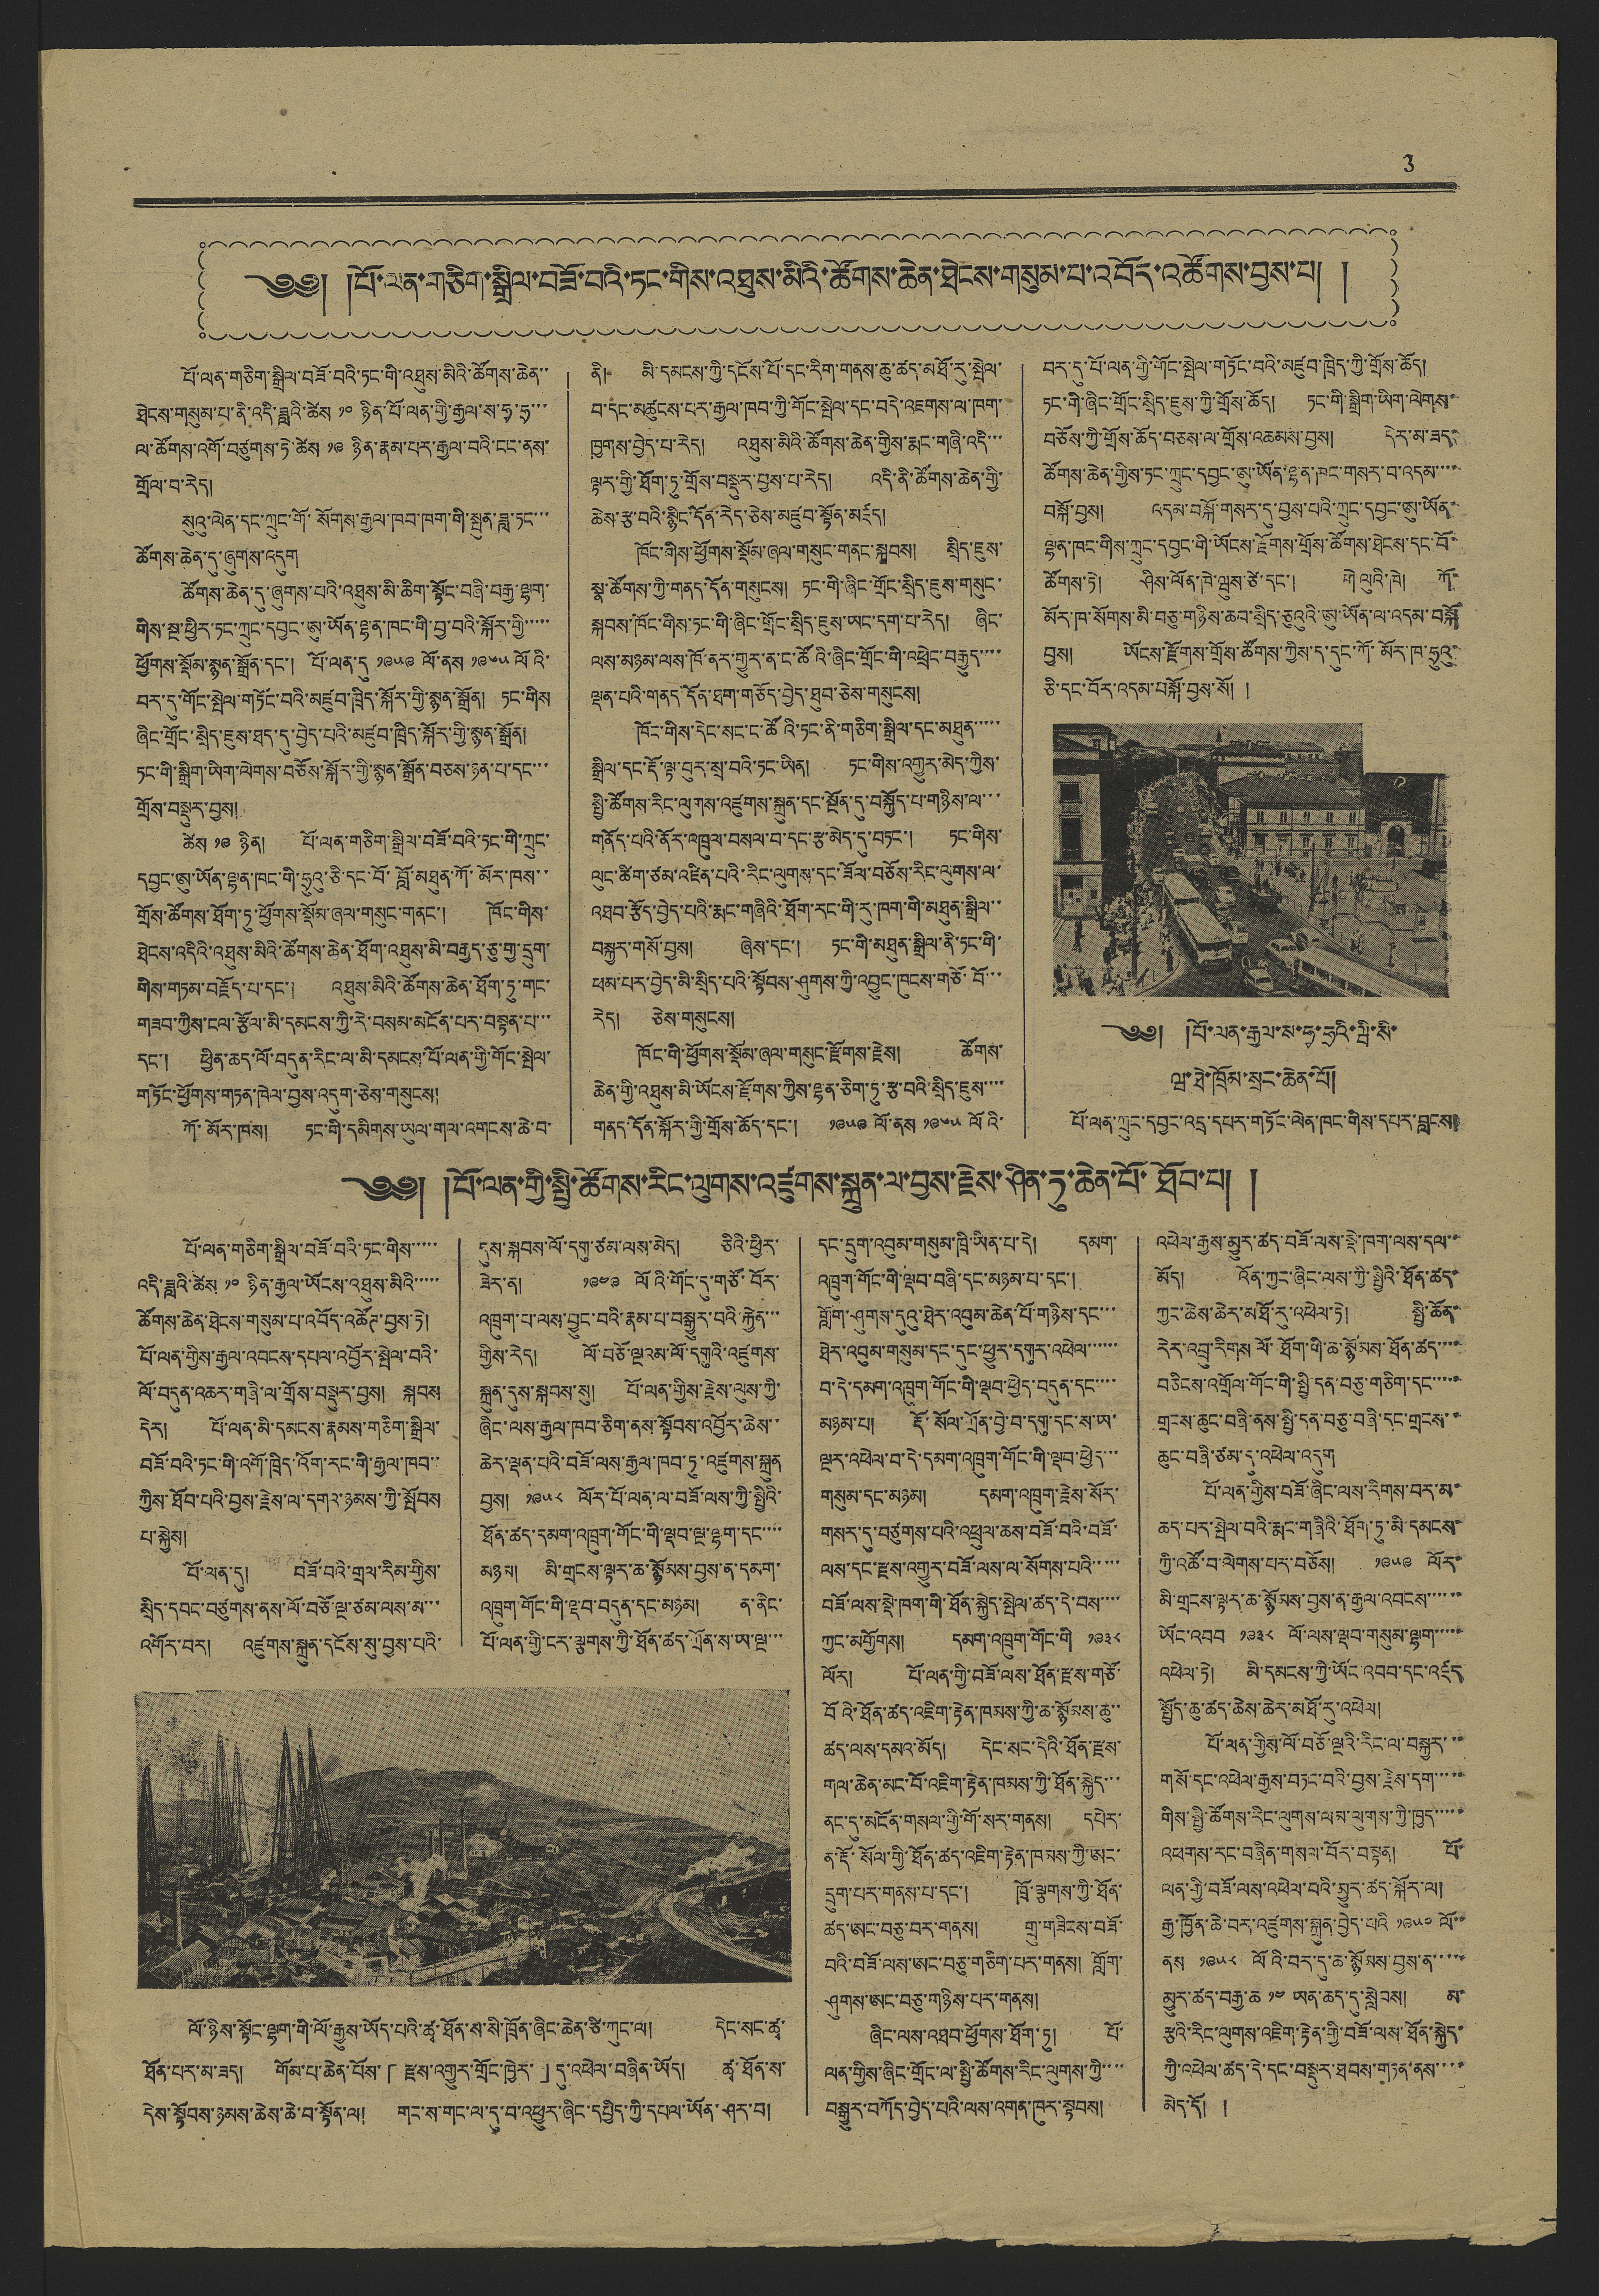3
༄༅། །པོ་ལན་གཅིག་སྒྲིལ་བཟོ་བའི་ཏང་གིས་འཐུས་མིའི་ཚོགས་ཆེན་ཐེངས་གསུམ་པ་འབོད་འཚོགས་བྱས་པ། །
པོ་ལན་གཅིག་སྒྲིལ་བཟོ་བའི་ཏང་གི་འཐུས་མིའི་ཚོགས་ཆེན་་
ཐེངས་གསུམ་པ་ནི་འདི་ཟླའི་ཚེས ༡༠ ཉིན་པོ་ལན་གྱི་རྒྱལ་ས་ཧྭ་ཧྲ་་་
ལ་ཚོགས་འགོ་བཙུགས་ཏེ་ཚེས ༡༩ ཉིན་རྣམ་པར་རྒྱལ་བའི་ངང་ནས་
གྲོལ་བ་རེད།
སུའུ་ལེན་དང་ཀྲུང་གོ་སོགས་རྒྱལ་ཁབ་ཁག་གི་སྤུན་ཟླ་ཏང་་་
ཚོགས་ཆེན་དུ་ཞུགས་འདུག
ཚོགས་ཆེན་དུ་ཞུགས་པའི་འཐུས་མི་ཆིག་སྟོང་བཞི་བརྒྱ་ལྷག་
གིས་སྔ་ཕྱིར་ཏང་ཀྲུང་དབྱང་ཨུ་ཡོན་ལྷན་ཁང་གི་བྱ་བའི་སྐོར་གྱི་་་་་
ཕྱོགས་སྡོམ་སྙན་སྒྲོན་དང་། པོ་ལན་དུ ༡༩༥༩ ལོ་ནས ༡༩༦༥ ལོའི་
བར་དུ་གོང་སྤེལ་གཏོང་བའི་མཛུབ་ཁྲིད་སྐོར་གྱི་སྙན་སྒྲོན། ཏང་གིས
ཞིང་གྲོང་སྲིད་ཇུས་ཐད་དུ་བྱེད་པའི་མཛུབ་ཁྲིད་སྐོར་གྱི་སྙན་སྒྲོན།
ཏང་གི་སྒྲིག་ཡིག་ལེགས་བཅོས་སྐོར་གྱི་སྙན་སྒྲོན་བཅས་ཉན་པ་དང་་་
གྲོས་བསྡུར་བྱས།
ཚེས ༡༩ ཉིན། པོ་ལན་གཅིག་སྒྲིལ་བཟོ་བའི་ཏང་གི་ཀྲུང་
དབྱང་ཨུ་ཡོན་ལྷན་ཁང་གི་ཧྲུའུ་ཅི་དང་བོ་བློ་མཐུན་གོ་མོར་ཁས་་
གྲོས་ཚོགས་ཐོག་ཏུ་ཕྱོགས་སྡོམ་ཞལ་གསུང་གནང་། ཁོང་གིས་
ཐེངས་འདིའི་འཐུས་མིའི་ཚོགས་ཆེན་ཐོག་འཐུས་མི་བརྒྱད་ཅུ་གྱ་དྲུག་
གིས་གཏམ་བརྗོད་པ་དང་། འཐུས་མིའི་ཚོགས་ཆེན་ཐོག་ཏུ་གང་
གཟབ་ཀྱིས་ངལ་རྩོལ་མི་དམངས་ཀྱི་རེ་བསམ་མངོན་པར་བསྟན་པ་་་
དང་། ཕྱིན་ཆད་ལོ་བདུན་རིང་ལ་མི་དམངས་པོ་ལན་གྱི་གོང་སྤེལ་
གཏོང་ཕྱོགས་གཏན་ཁེལ་བྱས་འདུག་ཅེས་གསུངས།
ཀོ་མོར་ཁས། ཏང་གི་དམིགས་ཡུལ་གལ་འགངས་ཆེ་བ་
ནི། མི་དམངས་ཀྱི་དངོས་པོ་དང་རིག་གནས་ཆུ་ཚད་མཐོ་རུ་སྤེལ་
བ་དང་མཚུངས་པར་རྒྱལ་ཁབ་ཀྱི་གོང་སྤེལ་དང་བདེ་འཇགས་ལ་ཁག་
ཁྱགས་བྱེད་པ་རེད། འཐུས་མིའི་ཚོགས་ཆེན་གྱིས་རྨང་གཞི་འདི་་་
ལྟར་གྱི་ཐོག་ཏུ་གྲོས་བསྡུར་བྱས་པ་རེད། འདི་ནི་ཚོགས་ཆེན་གྱི་
ཆེས་རྩ་བའི་སྙིང་དོན་རེད་ཅེས་མཛུབ་སྟོན་མཛད།
ཁོང་གིས་ཕྱོགས་སྡོམ་ཞལ་གསུང་གནང་སྐབས། སྲིད་ཇུས་
སྣ་ཚོགས་ཀྱི་གནད་དོན་གསུངས། ཏང་གི་ཞིང་གྲོང་སྲིད་ཇུས་གསུང་
སྐབས་ཁོང་གིས་ཏང་གི་ཞིང་གྲོང་སྲིད་ཇུས་ཡང་དག་པ་རེད། ཞིང་
ལས་མཉམ་ལས་ཁོ་ནར་གྱུར་ན་ང་ཚོའི་ཞིང་གྲོང་གི་འཕྲེང་བརྒྱུད་་་་
ལྡན་པའི་གནད་དོན་ཐག་གཅོད་བྱེད་ཐུབ་ཅེས་གསུངས།
ཁོང་གིས་དེང་སང་ང་ཚོའི་ཏང་ནི་གཅིག་སྒྲིལ་དང་མཐུན་་་་་
སྒྲིལ་དང་རྡོ་ལྟ་བུར་སྲ་བའི་ཏང་ཡིན། ཏང་གིས་འགྱུར་མེད་ཀྱིས་
སྤྱི་ཚོགས་རིང་ལུགས་འཛུགས་སྐྲུན་དང་སྔོན་དུ་བསྐྱོད་པ་གཉིས་ལ་་་
གནོད་པའི་ནོར་འཁྲུལ་བསལ་བ་དང་རྩ་མེད་དུ་བཏང་། ཏང་གིས་
ལུང་ཚིག་ཙམ་འཛིན་པའི་རིང་ལུགས་དང་ཟོལ་བཅོས་རིང་ལུགས་ལ་
འཐབ་རྩོད་བྱེད་པའི་རྨང་གཞིའི་ཐོག་རང་གི་རུ་ཁག་གི་མཐུན་སྒྲིལ་་
བསྐྱར་གསོ་བྱས། ཞེས་དང་། ཏང་གི་མཐུན་སྒྲིལ་ནི་ཏང་གི་
ཕམ་པར་བྱེད་མི་སྲིད་པའི་སྟོབས་ཤུགས་ཀྱི་འབྱུང་ཁུངས་གཙོ་བོ་་་
རེད། ཅེས་གསུངས།
ཁོང་གི་ཕྱོགས་སྡོམ་ཞལ་གསུང་རྫོགས་རྗེས། ཚོགས་
ཆེན་གྱི་འཐུས་མི་ཡོངས་རྫོགས་ཀྱིས་ལྷན་ཅིག་ཏུ་རྩ་བའི་སྲིད་ཇུས་་་་
གནད་དོན་སྐོར་གྱི་གྲོས་ཆོད་དང་། ༡༩༥༩ ལོ་ནས ༡༩༦༥ ལོའི་
བར་དུ་པོ་ལན་གྱི་གོང་སྤེལ་གཏོང་བའི་མཛུབ་ཁྲིད་ཀྱི་གྲོས་ཆོད།
ཏང་གི་ཞིང་གྲོང་སྲིད་ཇུས་ཀྱི་གྲོས་ཆོད། ཏང་གི་སྒྲིག་ཡིག་ལེགས་
བཅོས་ཀྱི་གྲོས་ཆོད་བཅས་ལ་གྲོས་འཆམས་བྱས། དེར་མ་ཟད་
ཚོགས་ཆེན་གྱིས་ཏང་ཀྲུང་དབྱང་ཨུ་ཡོན་ལྷན་ཁང་གསར་བ་འདམ་་་་
བསྐོ་བྱས། འདམ་བསྐོ་གསར་དུ་བྱས་པའི་ཀྲུང་དབྱང་ཨུ་ཡོན་
ལྷན་ཁང་གིས་ཀྲུང་དབྱང་གི་ཡོངས་རྫོགས་གྲོས་ཚོགས་ཐེངས་དང་བོ་
ཚོགས་ཏེ། ཤིས་ལོན་ཁེ་ཝུས་ཙེ་དང་། གེ ལུའི་ཁེ། ཀོ་
མོར་ཁ་སོགས་མི་བཅུ་གཉིས་ཆབ་སྲིད་ཅུའུའི་ཨུ་ཡོན་ལ་འདམ་བསྐོ
བྱས། ཡོངས་རྫོགས་གྲོས་ཚོགས་ཀྱིས་ད་དུང་ཀོ་མོར་ཁ་ཧྲུའུ་
ཅི་དང་བོར་འདམ་བསྐོ་བྱས་སོ། །
༄༅། །པོ་ལན་རྒྱལ་ས་ཧྭ་ཧྲའི་ཝི་སི་
ཝ་ཐེ་ཁྲོམ་སྲང་ཆེན་པོ།
པོ་ལན་ཀྲུང་དབྱང་འདྲ་དཔར་གཏོང་ལེན་ཁང་གིས་དཔར་བླངས།
༄༅། །པོ་ལན་གྱི་སྤྱི་ཚོགས་རིང་ལུགས་འཛུགས་སྐྲུན་ལ་བྱས་རྗེས་ཤིན་ཏུ་ཆེན་པོ་ཐོབ་པ། །
པོ་ལན་གཅིག་སྒྲིལ་བཟོ་བའི་ཏང་གིས་་་་་
འདི་ཟླའི་ཚེས ༡༠ ཉིན་རྒྱལ་ཡོངས་འཐུས་མིའི་་་་་
ཚོགས་ཆེན་ཐེངས་གསུམ་པ་འབོད་འཚོཊ་བྱས་ཏེ།
པོ་ལན་གྱིས་རྒྱལ་འབངས་དཔལ་འབྱོར་སྤེལ་བའི་
ལོ་བདུན་འཆར་གཞི་ལ་གྲོས་བསྡུར་བྱས། སྐབས
དེར། པོ་ལན་མི་དམངས་རྣམས་གཅིག་སྒྲིལ་
བཟོ་བའི་ཏང་གི་འགོ་ཁྲིད་འོག་རང་གི་རྒྱལ་ཁབ་་
ཀྱིས་ཐོབ་པའི་བྱས་རྗེས་ལ་དགའ་ཉམས་ཀྱི་སྤོབས་
པ་སྐྱེས།
པོ་ལན་དུ། བཟོ་བའི་གྲལ་རིམ་གྱིས་
སྲིད་དབང་བཙུགས་ནས་ལོ་བཅོ་ལྔ་ཙམ་ལས་མ་་་
འགོར་བར། འཛུགས་སྐྲུན་དངོས་སུ་བྱས་པའི་
དུས་སྐབས་ལོ་དགུ་ཙམ་ལས་མེད། ཅིའི་ཕྱིར་
ཟེར་ན། ༡༩༤༩ ལོའི་གོང་དུ་གཙོ་བོར་
འཁྲུག་པ་ལས་བྱུང་བའི་རྣམ་པ་བསྒྱུར་བའི་རྐྱེན་་་
གྱིས་རེད། ལོ་བཅོ་ལྔའམ་ལོ་དགུའི་འཛུགས་
སྐྲུན་དུས་སྐབས་སུ། པོ་ལན་གྱིས་རྗེས་ལུས་ཀྱི་
ཞིང་ལས་རྒྱལ་ཁབ་ཅིག་ནས་སྟོབས་འབྱོར་ཆེས་་
ཆེར་ལྡན་པའི་བཟོ་ལས་རྒྱལ་ཁབ་ཏུ་འཛུགས་སྐྲུན
བྱས། ༡༩༥༨ ལོར་པོ་ལན་ལ་བཟོ་ལས་ཀྱི་སྤྱིའི་
ཐོན་ཚད་དམག་འཁྲུག་གོང་གི་ལྡབ་ལྔ་ལྷག་དང་་་་
མཉམ། མི་གྲངས་ལྟར་ཆ་སྙོམས་བྱས་ན་དམག་
འཁྲུག་གོང་གི་ལྡབ་བདུན་དང་མཉམ། ན་ནིང་
པོ་ལན་གྱི་ངར་ལྕགས་ཀྱི་ཐོན་ཚད་ཀྲོན་ས་ཡ་ལྔ་་་
དང་དྲུག་འབུམ་གསུམ་ཁྲི་ཡིན་པ་དེ། དམག་
འཁྲུག་གོང་གི་ལྡབ་བཞི་དང་མཉམ་པ་དང་།
གློག་ཤུགས་དུའུ་ཐེར་འབུམ་ཆེན་པོ་གཉིས་དང་་་
ཐེར་འབུམ་གསུམ་དང་དུང་ཕྱུར་དགུར་འཕེལ་་་་་་
བ་དེ་དམག་འཁྲུག་གོང་གི་ལྡབ་ཕྱེད་བདུན་དང་་་་
མཉམ་པ། རྡོ་སོལ་གྲོན་བྱེ་བ་དགུ་དང་ས་ཡ་
ལྔར་འཕེལ་བ་དེ་དམག་འཁྲུག་གོང་གི་ལྡབ་ཕྱེད་་་
གསུམ་དང་མཉམ། དམག་འཁྲུག་རྗེས་སོར་
གསར་དུ་བཙུགས་པའི་འཕྲུལ་ཆས་བཟོ་བའི་བཟོ་
ལས་དང་རྫས་འགྱུར་བཟོ་ལས་ལ་སོགས་པའི་་་་་
བཟོ་ལས་སྡེ་ཁག་གི་ཐོན་སྐྱེད་སྤེལ་ཚད་དེ་བས་་་་
ཀྱང་མགྱོགས། དམག་འཁྲུག་གོང་གི ༡༩༣༨
ལོར། པོ་ལན་གྱི་བཟོ་ལས་ཐོན་རྫས་གཙོ་
བོའི་ཐོན་ཚད་འཇིག་རྟེན་ཁམས་ཀྱི་ཆ་སྙོམས་ཆུ་་
ཚད་ལས་དམའ་མོད། དེང་སང་དེའི་ཐོན་རྫས་
གལ་ཆེན་མང་བོ་འཇིག་རྟེན་ཁམས་ཀྱི་ཐོན་སྐྱེད་་་
ནང་དུ་མངོན་གསལ་གྱི་གོ་སར་གནས། དཔེར་
ན་རྡོ་སོལ་གྱི་ཐོན་ཚད་འཇིག་རྟེན་ཁམས་ཀྱི་ཨང་
དྲུག་པར་གནས་པ་དང་། ཁྲོ་ལྕགས་ཀྱི་ཐོན་
ཚད་ཨང་བཅུ་བར་གནས། གྲུ་གཟིངས་བཟོ་
བའི་བཟོ་ལས་ཨང་བཅུ་གཅིག་པར་གནས། གློག་
ཤུགས་ཨང་བཅུ་གཉིས་པར་གནས།
ཞིང་ལས་འཐབ་ཕྱོགས་ཐོག་ཏུ། པོ་
ལན་གྱིས་ཞིང་གྲོང་ལ་སྤྱི་ཚོགས་རིང་ལུགས་ཀྱི་་་་
བསྒྱུར་བཀོད་བྱེད་པའི་ལས་འགན་ཁུར་སྟབས།
འཕེལ་རྒྱས་མྱུར་ཚད་བཟོ་ལས་སྡེ་ཁག་ལས་དལ་་
མོད། འོན་ཀྱང་ཞིང་ལས་ཀྱི་སྤྱིའི་ཐོན་ཚད་
ཀྱང་ཆེས་ཆེར་མཐོ་རུ་འཕེལ་ཏེ། སྤྱི་ཆོན་
རེར་འབྲུ་རིགས ལོ་ཐོག་གི་ཆ་སྙོམས་ཐོན་ཚད་་་་
བཅིངས་འགྲོལ་གོང་གི་སྤྱི་དན་བཅུ་གཅིག་དང་་་་་
གྲངས་ཆུང་བཞི་ནས་སྤྱི་དན་བཅུ་བཞི་དང་གྲངས་་
ཆུང་བཞི་ཙམ་དུ་འཕེལ་འདུག
པོ་ལན་གྱིས་བཟོ་ཞིང་ལས་རིགས་བར་མ་
ཆད་པར་སྤེལ་བའི་རྨང་གཞིའི་ཐོག་ཏུ་མི་དམངས་
ཀྱི་འཚོ་བ་ལེགས་པར་བཅོས། ༡༩༥༩ ལོར་
མི་གྲངས་ལྟར་ཆ་སྙོམས་བྱས་ན་རྒྱ་འབངས་་་་་་
ཡོང་འབབ ༡༩༣༨ ལོ་ལས་ལྡབ་གསུམ་ལྷག་་་་་
འཕེལ་ཏེ། མི་དམངས་ཀྱི་ཡོང་འབབ་དང་འཛད
སྤྱོད་ཆུ་ཚད་ཆེས་ཆེར་མཐོ་རུ་འཕེལ།
པོ་ལན་གྱིས་ལོ་བཅོ་ལྔའི་རིང་ལ་བསྐྱར་་་
གསོ་དང་འཕེལ་རྒྱས་བཏང་བའི་བྱས་རྗེས་དག་་་་་
གིས་སྤྱི་ཚོགས་རིང་ལུགས་ལམ་ལུགས་ཀྱི་ཁྱད་་་་་
འཕགས་རང་བཞིན་གསལ་བོར་བསྟན། པོ་
ལན་གྱི་བཟོ་ལས་འཕེལ་བའི་མྱུར་ཚད་སྐོར་ལ།
རྒྱ་ཁྱོན་ཆེ་བར་འཛུགས་སྐྲུན་བྱེད་པའི ༡༩༥༠ ལོ་་
ནས ༡༩༥༨ ལོའི་བར་དུ་ཆ་སྙོམས་བྱས་ན་་་་་
མྱུར་ཚད་བརྒྱ་ཆ ༡༤ ཡན་ཆད་དུ་སླེབས། མ་
རྩའི་རིང་ལུགས་འཇིག་རྟེན་གྱི་བཟོ་ལས་ཐོན་སྐྱེད་
ཀྱི་འཕེལ་ཚད་དེ་དང་བསྡུར་ཐབས་གཏན་ནས་་་་
མེད་དོ། །
ལོ་ཉིས་སྟོང་ལྷག་གི་ལོ་རྒྱུས་ཡོད་པའི་ཚྭ་ཐོན་ས་སི་ཁྲོན་ཞིང་ཆེན་ཙི་ཀུང་ལ། དེང་སང་ཚྭ་
ཐོན་པར་མ་ཟད། གོམ་པ་ཆེན་པོས་「རྫས་འགྱུར་གྲོང་ཁྱེར་」དུ་འཕེལ་བཞིན་ཡོད། ཚྭ་ཐོན་ས་
དེས་སྟོབས་ཉམས་ཆེས་ཆེ་བ་སྟོན་ལ། གང་ས་གང་ལ་དུ་བ་འཕྱུར་ཞིང་དཔྱིད་ཀྱི་དཔལ་ཡོན་ཤར་བ།
